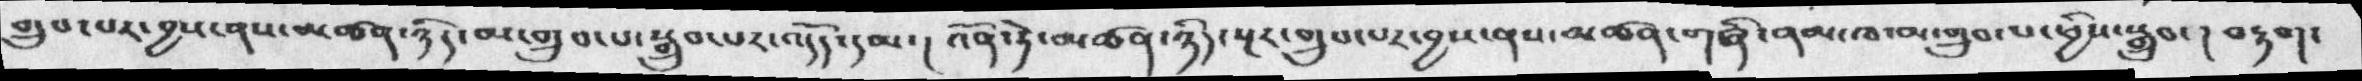གྲུབ་པར་བྱས་ནས་མཚན་ཉིད་མ་གྲུབ་པ་སྒྲུབ་པར་འདོད་དམ་། འོན་ཏེ་མཚན་ཉིད་སྔར་གྲུབ་པར་བྱས་ནས་མཚན་གཞི་ནམ་ཁ་མ་གྲུབ་པ་ཕྱིས་སྒྲུབ་། བརྟག་
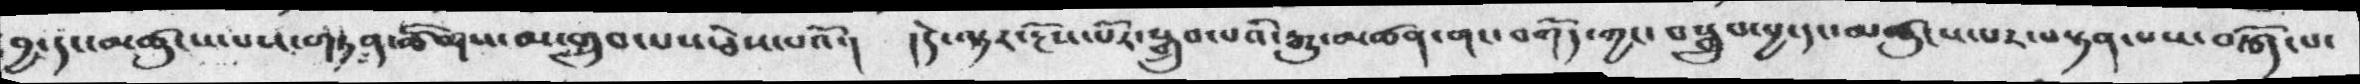བྱ་དང་མཚུངས་པས་གཏན་ཚིགས་མ་གྲུབ་པས་ཅེས་པའོ་།  །དེ་ལྟར་རྔོས་པོར་སྒྲུབ་པའི་རྒྱུ་མཚན་གང་བཀོད་ཀྱང་བསྒྲུབ་བྱ་དང་མཚུངས་པར་བསྟན་པས་བརྩོད་པ་
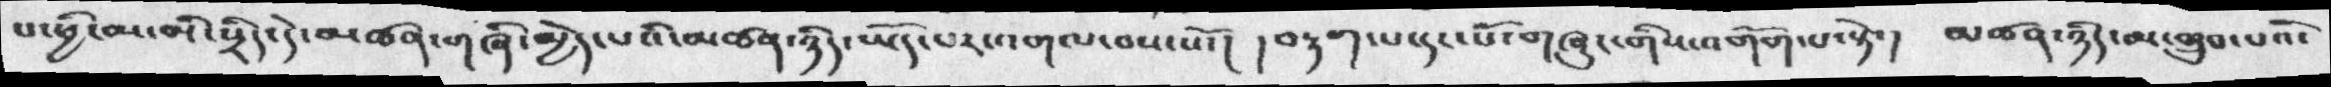པ་ཕྱི་མ་མི་སྲིད་དེ་མཚན་གཞི་མྱེད་པའི་མཚན་ཉིད་ཡོད་པར་འགལ་བས་སོ་།  །བརྟག་པ་དང་པོ་གཞུང་གིས་འགོག་པ་སྟེ་། མཚན་ཉིད་མ་གྲུབ་པའོ་
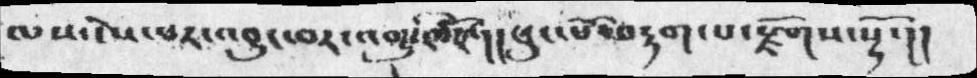ལས་ངེས་པར་འབྱུང་བར་འགྱུར་ཟེར་རོ་།།  ཕུང་པོ་བརྟག་པ་རྫོགས་སྷོ་།།
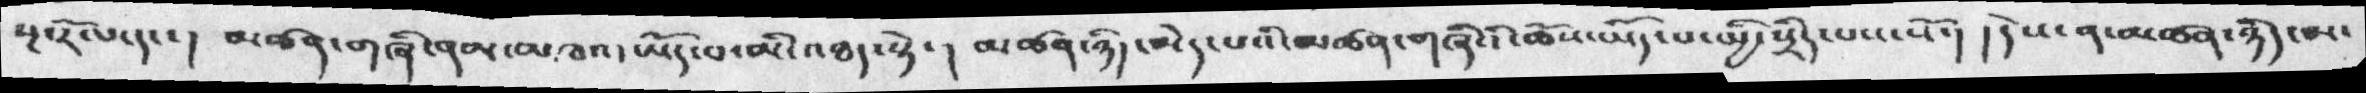སྔ་རོལ་དང་། མཚན་གཞི་ནམ་མཁའ་ཡོད་པ་མི་འཐད་སྟེ་། མཚན་ཉིད་མེད་པའི་མཚན་གཞིའི་ཆོས་ཡོད་པ་མྱི་སྲིད་པས་སོ་། །དེས་ན་མཚན་ཉིད་མ་
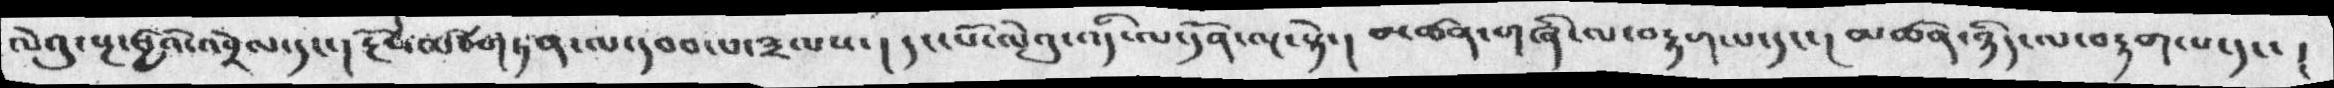ལེའུ་སྔ་ཕྱིའི་འབྲེལ་དང་། རྔོས་ལ་གཏན་ལ་དབབ་པ་༣ལས་། དང་པོ་ལེའུ་འདི་ལ་དོན་ལྔ་སྟེ་། མཚན་གཞི་ལ་བརྟག་པ་དང་། མཚན་ཉིད་ལ་བརྟག་པ་དང་།
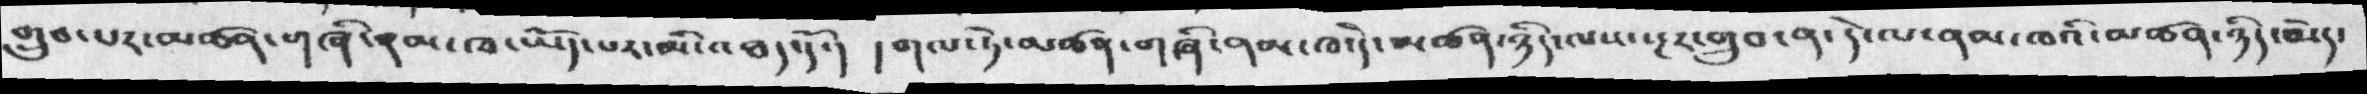གྲུབ་པར་མཚན་གཞི་ནམ་ཁ་ཡོད་པར་མི་འཐད་དོ་། །གལ་ཏེ་མཚན་གཞི་ནམ་ཁ་དེ་མཚན་ཉིད་ལས་སྔར་གྲུབ་ན་དེ་ལ་ནམ་མཁའི་མཚན་ཉིད་མེད་
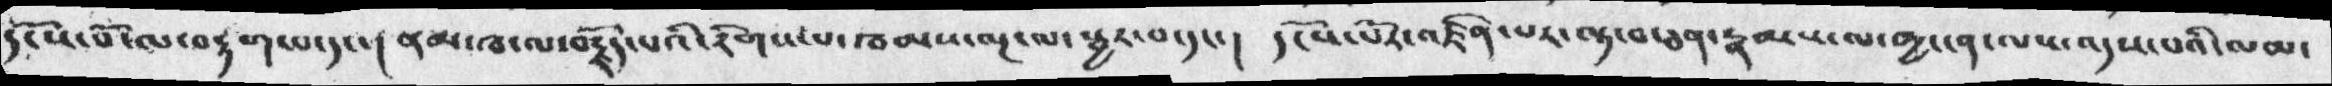དངོས་པོ་ལ་བརྟག་པ་དང་། ནམ་ཁ་ལ་བརྗོད་པའི་རིགས་པ་ཁམས་ལྔ་ལ་སྦྱར་བ་དང་། དངོས་པོར་འཛིན་པར་ལྟ་བ་ཅན་རྣམས་ལ་མྱ་ངན་ལས་འདས་པའི་ལམ་
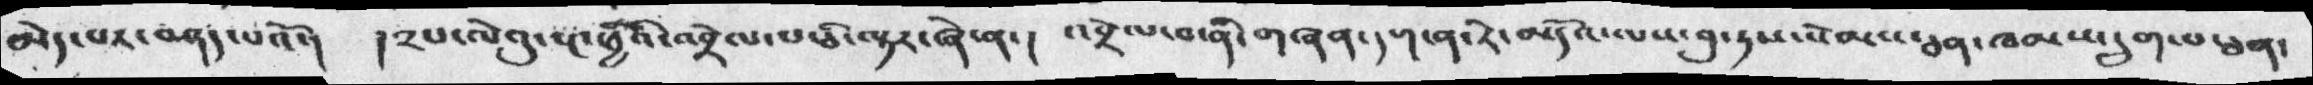མེད་པར་བཤད་པའོ་།  །༢པ་ལེའུ་སྔ་ཕྱིའི་འབྲེལ་པ་ཅི་ལྟར་ཞེ་ན་།  འབྲེལ་བ་ནི་གཞན་དག་ན་རེ་མདོའ་ལས་བུ་ཏས་སེམས་ཅན་ཁམས་དྲུག་པ་ཅན་
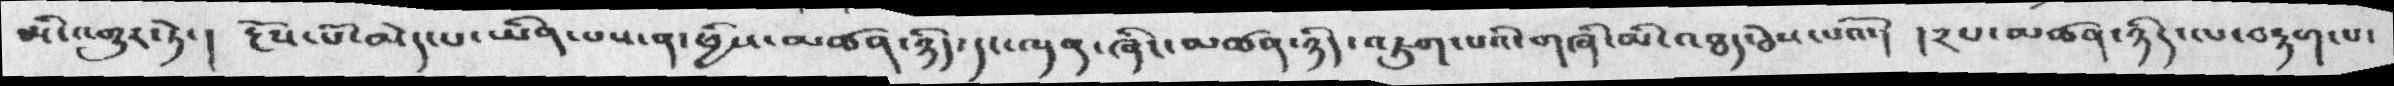མི་འགྱུར་ཏེ་།  རྔོས་པོ་མེད་པ་ཡིན་པས་ན་ཕྱིས་མཚན་ཉིད་དང་ལྡན་ཞིང་མཚན་ཉིད་འཇུག་པའི་གཞི་མི་འཐད་ཅེས་པའོ་།  །༢པ་མཚན་ཉིད་ལ་བརྟག་པ་
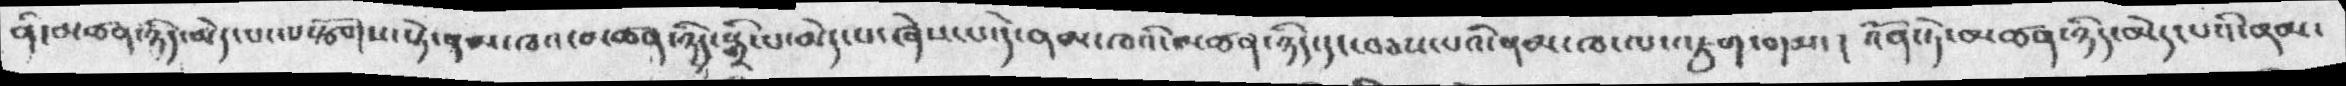ནི་མཚན་ཉིད་མེད་པ་ལསྩོགས་སྟེ་ནམ་ཁའ་མཚན་ཉིད་སྒྲི་པ་མེད་པ་ཞེས་པ་དེ་ནམ་ཁའི་མཚན་ཉིད་དང་བཅས་པའི་ནམ་ཁ་ལ་འཇུག་གམ་། འོན་ཏེ་མཚན་ཉིད་མེད་པའི་ནམ་
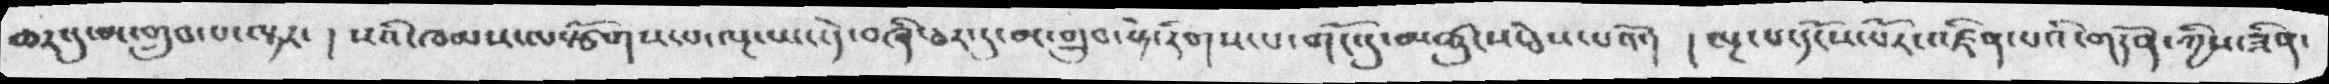ཆར་དུ་མ་གྲུབ་པ་ལྟར་། སའི་ཁམས་ལསྩོགས་པ་ལྔ་ཡང་དེ་བཞི་ཅར་དུ་མ་གྲུབ་སྟེ་རིགས་པ་གོང་དུ་མཚུངས་ཅེས་པའོ་།  །ལྔ་པ་དངོས་པོར་འཛིན་པའི་གདོན་ཀྱིས་ཟིན་
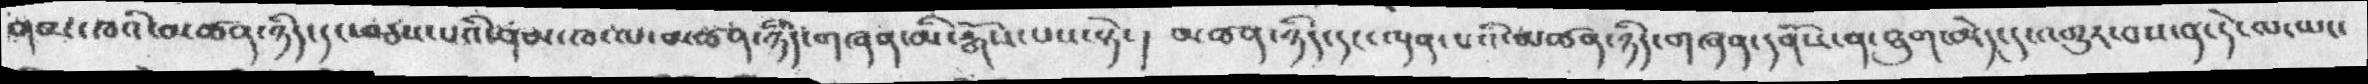ནམ་ཁའི་མཚན་ཉིད་དང་བཅས་པའི་ནམ་ཁ་ལ་མཚན་ཉིད་གཞན་མི་རྒོས་པས་སྟེ་། མཚན་ཉིད་དང་ལྡན་པའི་མཚན་ཉིད་གཞན་དགོས་ན་ཐུག་མེད་དུ་འགྱུར་བས་ན་དེ་ལ་ཡང་
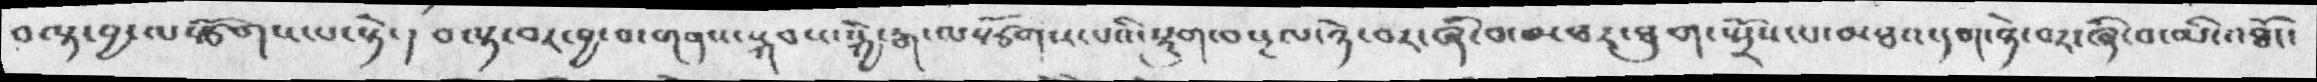བལྟ་བྱ་ལསྩོགས་པ་སྟེ་། བལྟ་བར་བྱ་བ་གནས་སྐབས་སྐྱེ་རྒ་ལསྩོགས་པའི་སྡུག་བསྔལ་ཉེ་བར་ཞི་བ་མཐར་ཐུག་སྤྲོས་པ་མཐའ་དག་ཉེ་བར་ཞི་བ་མི་འཐོང་
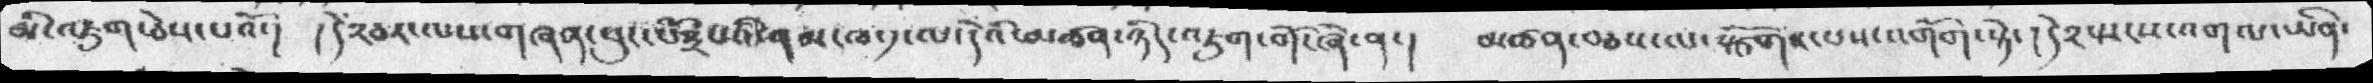མི་འཇུག་ཅེས་པའོ་།. །དེ༢ཅར་ལས་གཞན་ཕུང་པོ༣པའི་ནམ་ཁ་༡་ལ་དེའི་མཚན་ཉིད་འཇུག་གོ་ཞེ་ན་།  མཚན་བཅས་ལ་སྩོགས་པས་འགོག་སྟེ་། དེ༢སྤངས་འགལ་ཡིན་
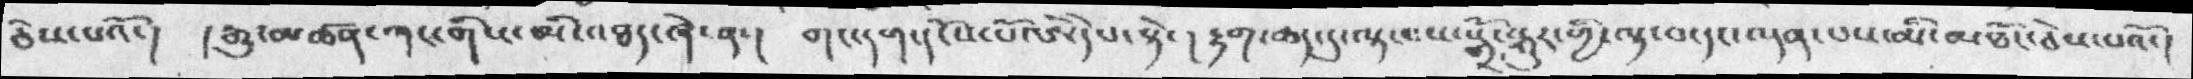ཅེས་པའོ་། །རྒྱུ་མཚན་གང་གིས་མི་འཐད་ཞེ་ན་། གང་དག་དངོས་པོ་ཨེདེཔ་སྟེ་། རྟག་ཆད་དུ་ལྟ་བས་སྒྲོ་སྐུར་གྱི་ལྟ་བ་དང་ལྡན་པས་མི་མཐོང་ཅེས་པའོ་།
